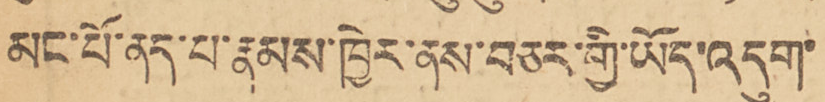མང་པོ་ནད་པ་རྣམས་ཁྱེར་ནས་བཅར་གྱི་ཡོད་འདུག་
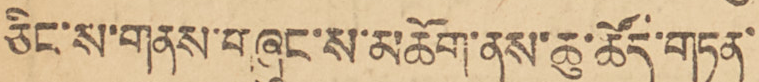ཅིང་ས་གནས་གཞུང་ས་མཆོག་ནས་ཆུ་ཚོད་གཏན་
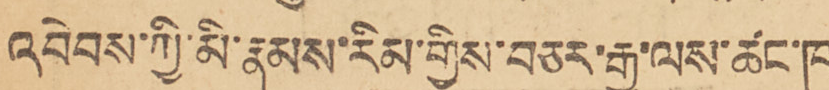འབེབས་ཀྱི་མི་རྣམས་རིམ་གྱིས་བཅར་རྒྱུ་ལས་ཚང་ཁ་
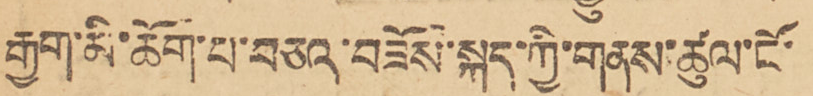རྒྱག་མི་ཆོག་པ་བཅའ་བཟོས་སྐད་ཀྱི་གནས་ཚུལ་ངོ་
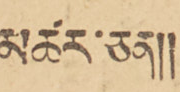མཚར་ཅན།།
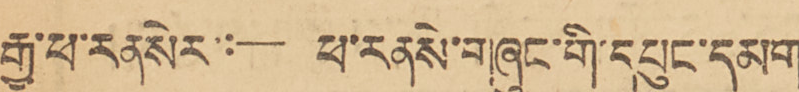རྒྱ་ཕ་རྣ་སེར་:— ཕ་རནསེ་གཞུང་གི་དཔུང་དམག་
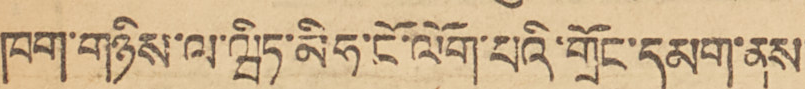ཁག་གཉིས་ལ་ཝིཏ་མིཧ་ངོ་ལོག་པའི་གྲོང་དམག་ནས་
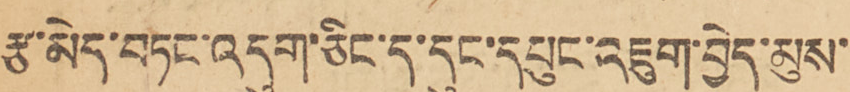རྩ་མེད་བཏང་འདུག་ཅིང་ད་དུང་དཔུང་འཇུག་བྱེད་མུས་
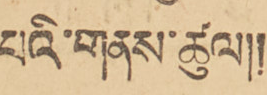པའི་གནས་ཚུལ།།
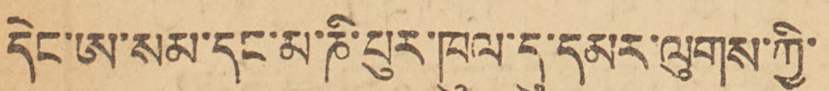དེང་ཨ་སམ་དང་མ་ཎི་པུར་ཁུལ་དམར་ལུགས་ཀྱི་
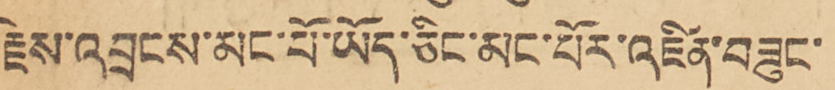རྗེས་འབྲངས་མང་པོ་ཡོད་ཅིང་མང་པོར་འཛིན་བཟུང་
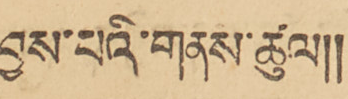བྱས་པའི་གནས་ཚུལ།།
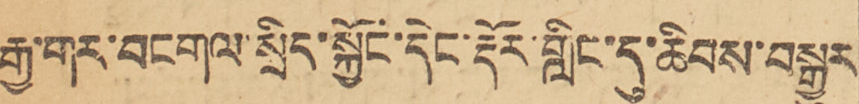རྒྱ་གར་བངགལ་སྲིད་སྐྱོང་དེང་རྡོར་གླིང་དུ་ཆིབས་བསྒྱུར
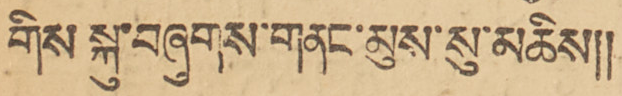གིས་སྐུ་བཞུགས་གནང་མུས་སུ་མཆིས།།
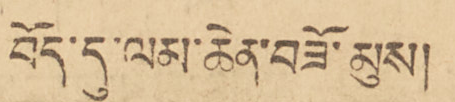བོད་དུ་ལམ་ཆེན་བཟོ་མུས།
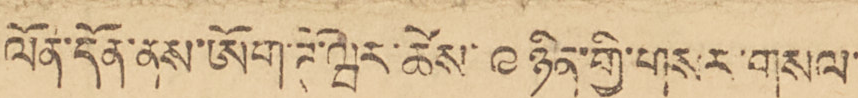ལོན་དོན་ནས་ཨོག་ཊོ་ཝར་ཚེས་ ༩ ཉིན་གྱི་གསར་གསལ་
